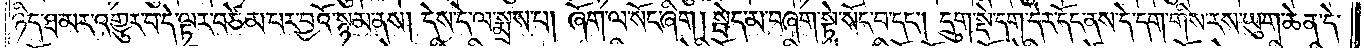ཉིད་ཐ་མར་འགྱུར་བ་དེ་ལྟར་བཙེམ་པར་བྱའོ་སྙམ་ནས། དེས་དེ་ལ་སྨྲས་པ། ཞོག་ལ་སོང་ཞིག །སྦེད་མ་བཞག་སྟེ་སོང་བ་དང༌། དྲུག་སྡེ་དག་དེར་དོང་ནས་དེ་དག་གིས་རས་ཡུག་ཆེན་དེ་
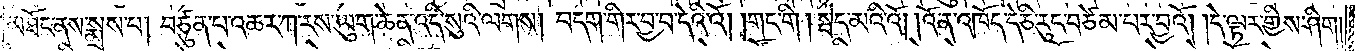མཐོང་ནས་སྨྲས་པ། བཙུན་པ་འཆར་ཀ་རས་ཡུག་ཆེན་འདི་སུའི་ལགས། བདག་གིར་བྱ་བ་དེའི་འོ། །གང་གི། སྦེད་མའི་འོ། །འོ་ན་འཁོད་དེ་ཅི་རུང་བཙེམ་པར་བྱའོ། །དེ་ལྟར་གྱིས་ཤིག་
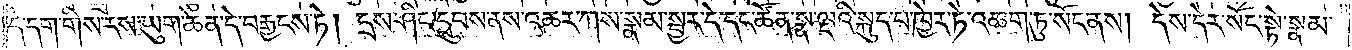དེ་དག་གིས་རས་ཡུག་ཆེན་དེ་བརྒྱངས་ཏེ། དྲས་ཤིང་དྲུབས་ནས་འཆར་ཀས་སྣམ་སྦྱར་དེ་དང་ཚོན་སྣ་ལྔའི་སྐུད་པ་ཁྱེར་ཏེ་འཆག་ཏུ་སོང་ནས། དེས་དེར་སོང་སྟེ་སྣམ་
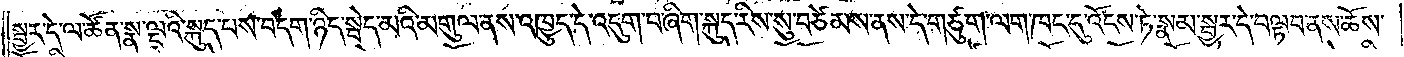སྦྱར་དེ་ལ་ཚོན་སྣ་ལྔའི་སྐུད་པས་བདག་ཉིད་སྦེད་མའི་མགུལ་ནས་འཁྱུད་དེ་འདུག་བ་ཞིག་སྐུད་རིས་སུ་བཙེམས་ནས་དེ་གཙུག་ལག་ཁང་དུ་འོངས་ཏེ་སྣམ་སྦྱར་དེ་བལྟབ་ནས་ཆོས་
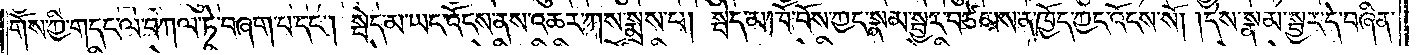གོས་ཀྱི་གདང་ལ་བཀལ་ཏེ་བཞག་པ་དང༌། སྦེད་མ་ཡང་འོངས་ནས་འཆར་ཀས་སྨྲས་པ། སྦེད་མ་ཁོ་བོས་ཀྱང་སྣམ་སྦྱར་བཙེམས་ན་ཁྱོད་ཀྱང་འོངས་སོ། །དེས་སྣམ་སྦྱར་དེ་བཞིན་
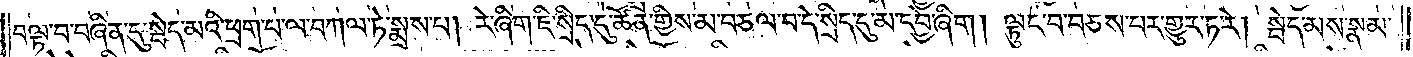བལྟ་བ་བཞིན་དུ་སྦེད་མའི་ཕྲག་པ་ལ་བཀལ་ཏེ་སྨྲས་པ།  རེ་ཞིག་ཇི་སྲིད་དུ་ཚོན་གྱིས་མ་བཅལ་བ་དེ་སྲིད་དུ་མ་དབྱེ་ཞིག། ། ལྟུང་བ་བཅས་པར་གྱུར་ཏ་རེ། སྦེད་མས་སྣམ་
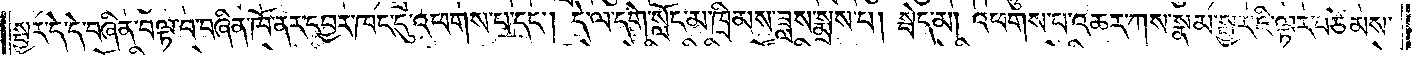སྦྱར་དེ་དེ་བཞིན་བལྟ་བ་བཞིན་ཁོ་ནར་དབྱར་ཁང་དུ་འཕགས་པ་དང༌། དེ་ལ་དགེ་སློང་མ་ཁྲིམས་ཟླས་སྨྲས་པ། སྦེད་མ། འཕགས་པ་འཆར་ཀས་སྣམ་སྦྱར་ཇི་ལྟར་བཙེམས་
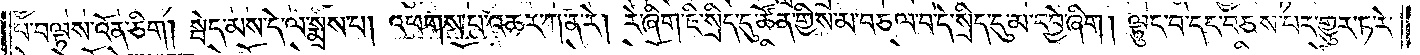པ་བལྟས་འོན་ཅིག །སྦེད་མས་དེ་ལ་སྨྲས་པ། འཕགས་པ་འཆར་ཀ་ན་རེ། རེ་ཞིག་ཇི་སྲིད་དུ་ཚོན་གྱིས་མ་བཅལ་བ་དེ་སྲིད་དུ་མ་དབྱེ་ཞིག །ལྟུང་བ་དང་བཅས་པར་གྱུར་ཏ་རེ་
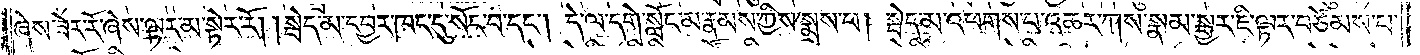ཞེས་ཟེར་རོ་ཞེས་ལྟར་མ་སྟེར་རོ། །སྦེད་མ་དབྱར་ཁང་དུ་སོང་བ་དང༌། དེ་ལ་དགེ་སློང་མ་རྣམས་ཀྱིས་སྨྲས་པ། སྦེད་མ་འཕགས་པ་འཆར་ཀས་སྣམ་སྦྱར་ཇི་ལྟར་བཙེམས་པ་
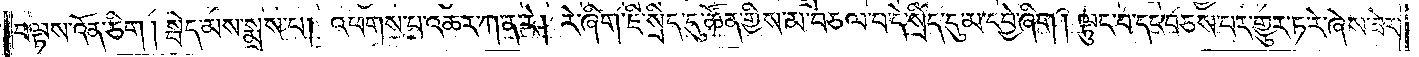བལྟས་འོན་ཅིག །སྦེད་མས་སྨྲས་པ། འཕགས་པ་འཆར་ཀ་ན་རེ། རེ་ཞིག་ཇི་སྲིད་དུ་ཚོན་གྱིས་མ་བཅལ་བ་དེ་སྲིད་དུ་མ་དབྱེ་ཞིག །ལྟུང་བ་དང་བཅས་པར་གྱུར་ཏེ་ཞེས་ཟེར་
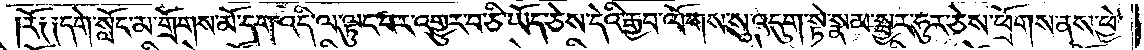རོ༑ ༑དགེ་སློང་མ་གྲོགས་མོ་དག་འདི་ལ་ལྟུང་བར་འགྱུར་བ་ཅི་ཡོད་ཅེས་དེའི་རྒྱབ་ལོགས་སུ་འདུག་སྟེ་སྣམ་སྦྱར་ཧུ་ར་ཅེས་ཕྲོགས་ནས་ཕྱེ་
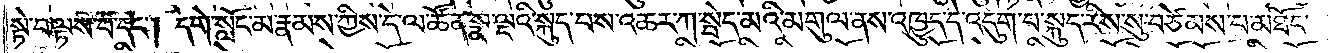སྟེ་བལྟས་པ་དང༌། དགེ་སློང་མ་རྣམས་ཀྱིས་དེ་ལ་ཚོན་སྣ་ལྔའི་སྐུད་པས་འཆར་ཀ་སྦེད་མའི་མགུལ་ནས་འཁྱུད་དེ་འདུག་པ་སྐུད་རིས་སུ་བཙེམས་པ་མཐོང་
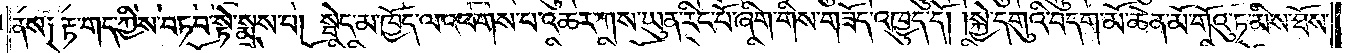ནས། རྟ་གད་ཀྱིས་བཏབ་སྟེ་སྨྲས་པ། སྦེད་མ་ཁྱོད་ལ་འཕགས་པ་འཆར་ཀས་ཡུན་རིང་པོ་ཞིག་གིས་གཟོད་འཁྱུད་དོ། །སྐྱེ་དགུའི་བདག་མོ་ཆེན་མོ་གོའུ་ཏ་མིས་ཐོས་
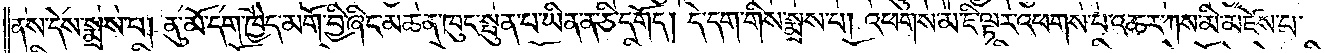ནས་དེས་སྨྲས་པ། ནུ་མོ་དག་ཁྱེད་མགོ་བྱི་ཞིང་མཆན་ཁུང་སྤུན་པ་ཡིན་ན་ཅི་དགོད། དེ་དག་གིས་སྨྲས་པ། འཕགས་མ་ཇི་ལྟར་འཕགས་པ་འཆར་ཀས་མི་མཛེས་པ་
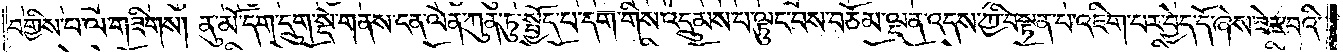བགྱིས་པ་ལ་གཟིགས། ནུ་མོ་དག་དྲུག་སྡེ་གནས་ངན་ལེན་ཀུན་ཏུ་སྤྱོད་པ་དག་གིས་འདྲུམས་པ་ལྟུང་བས་བཅོམ་ལྡན་འདས་ཀྱི་བསྟན་པ་འཇིག་པར་བྱེད་དོ་ཞེས་ཟེར་བའི་
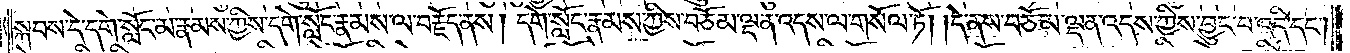སྐབས་དེ་དགེ་སློང་མ་རྣམས་ཀྱིས་དགེ་སློང་རྣམས་ལ་བརྗོད་ནས། དགེ་སློང་རྣམས་ཀྱིས་བཅོམ་ལྡན་འདས་ལ་གསོལ་ཏོ། །དེ་ནས་བཅོམ་ལྡན་འདས་ཀྱིས་བྱུང་བ་འདི་དང༌།
